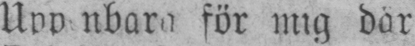Upp nbara för mig där
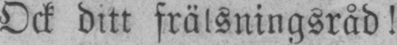Ock ditt frälsningsråd!
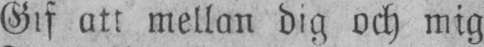Gif att mellan dig och mig
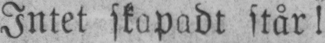Intet skapadt står!
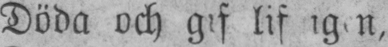Döda och gif lif igen,
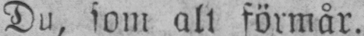Du, som alt förmår.
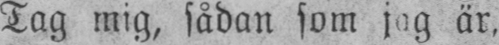Tag mig, sådan som jag är,
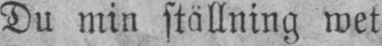Du min ställning wet
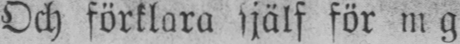Och förklara själf för m g
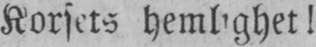Korsets hemlighet!
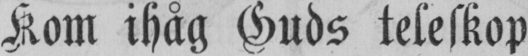Kom ihåg Guds teleskop
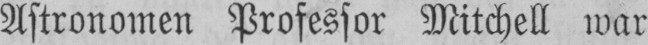Astronomen Professor Mitchell war
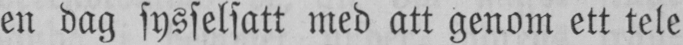en dag sysselsatt med att genom ett tele-
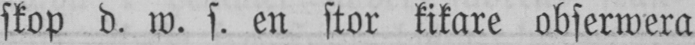skop d. w. s. en stor kikare obserwera
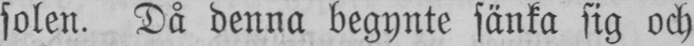solen. Då denna begynte sänka sig och
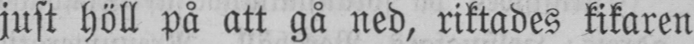just höll på att gå ned, riktades kikaren
